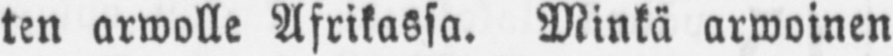ten arwolle Afrikassa. Minkä arwoinen
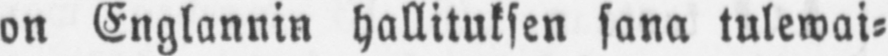on Englannin hallituksen sana tulewai-
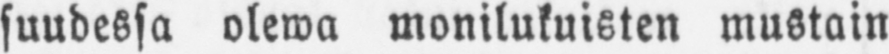suudessa olewa monilukuisten mustain
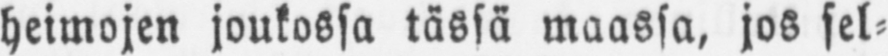heimojen joukossa tässä maassa, jos sel-
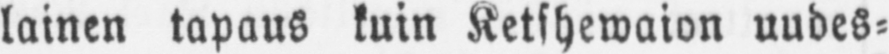lainen tapaus kuin Ketshewaion uudes-
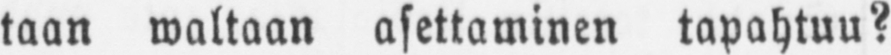taan waltaan asettaminen tapahtuu?
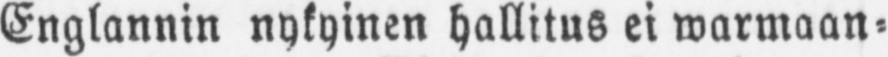Englannin nykyinen hallitus ei warmaan-
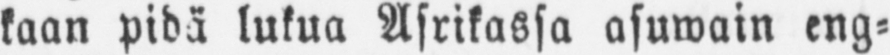kaan pidä lukua Asrikassa asuwain eng-
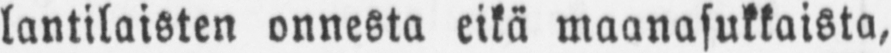lantilaisten onnesta eikä maanasukkaista,
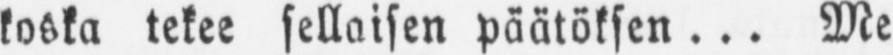koska tekee sellaisen päätöksen ... Me
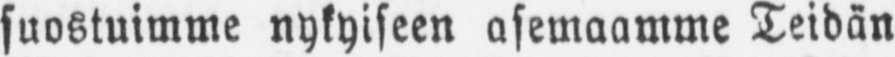suostuimme nykyiseen asemaamme Teidän
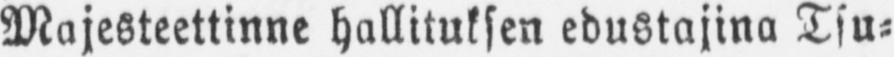Majesteettinne hallituksen edustajina Tsu-
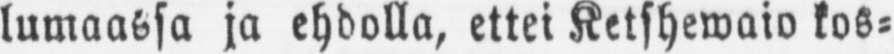lumaassa ja ehdolla, ettei Ketshewaio kos-
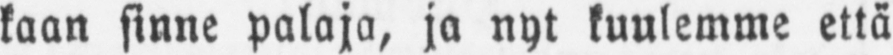kaan sinne palaja, ja nyt kuulemme että
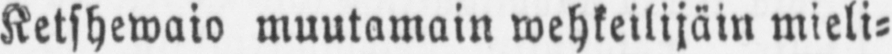Ketshewaio muutamain wehkeilijäin mieli-
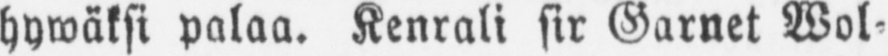hywäksi palaa. Kenrali sir Garnet Wol-
